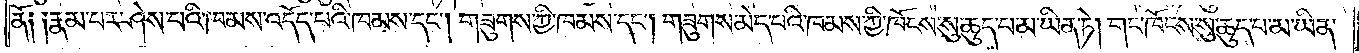ནོ༑ ༑རྣམ་པར་ཤེས་པའི་ཁམས་འདོད་པའི་ཁམས་དང༌། གཟུགས་ཀྱི་ཁམས་དང༌། གཟུགས་མེད་པའི་ཁམས་ཀྱི་ཁོངས་སུ་ཆུད་པ་མ་ཡིན་ཏེ། གང་ཁོངས་སུ་ཆུད་པ་མ་ཡིན་
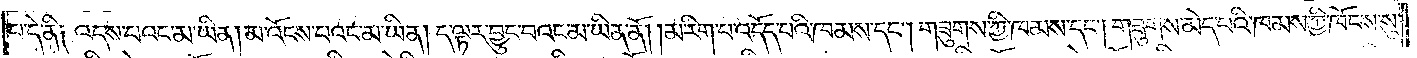པ་དེ་ནི༑ འདས་པའང་མ་ཡིན། མ་འོངས་པའང་མ་ཡིན། ད་ལྟར་བྱུང་བའང་མ་ཡིན་ནོ། །མ་རིག་པ་འདོད་པའི་ཁམས་དང༌། གཟུགས་ཀྱི་ཁམས་དང༌། གཟུགས་མེད་པའི་ཁམས་ཀྱི་ཁོངས་སུ་
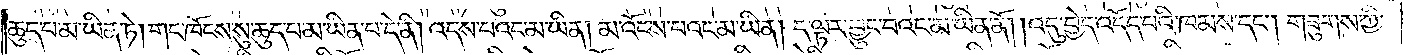ཆུད་པ་མ་ཡིན་ཏེ། གང་ཁོངས་སུ་ཆུད་པ་མ་ཡིན་པ་དེ་ནི། འདས་པའང་མ་ཡིན། མ་འོངས་པའང་མ་ཡིན། ད་ལྟར་བྱུང་བའང་མ་ཡིན་ནོ། །འདུ་བྱེད་འདོད་པའི་ཁམས་དང༌། གཟུགས་ཀྱི་
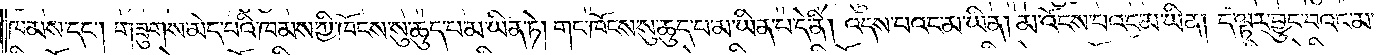ཁམས་དང༌། གཟུགས་མེད་པའི་ཁམས་ཀྱི་ཁོངས་སུ་ཆུད་པ་མ་ཡིན་ཏེ། གང་ཁོངས་སུ་ཆུད་པ་མ་ཡིན་པ་དེ་ནི། འདས་པའང་མ་ཡིན། མ་འོངས་པའང་མ་ཡིན། །ད་ལྟར་བྱུང་བའང་མ་
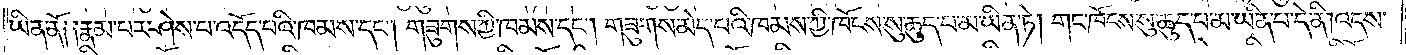ཡིན་ནོ༑ ༑རྣམ་པར་ཤེས་པ་འདོད་པའི་ཁམས་དང༌། གཟུགས་ཀྱི་ཁམས་དང༌། གཟུགས་མེད་པའི་ཁམས་ཀྱི་ཁོངས་སུ་ཆུད་པ་མ་ཡིན་ཏེ། གང་ཁོངས་སུ་ཆུད་པ་མ་ཡིན་པ་དེ་ནི། འདས་
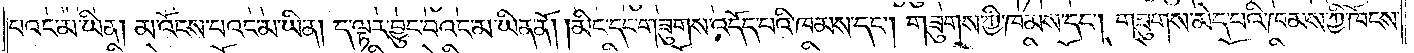པའང་མ་ཡིན། མ་འོངས་པའང་མ་ཡིན། ད་ལྟར་བྱུང་བའང་མ་ཡིན་ནོ། །མིང་དང་གཟུགས་འདོད་པའི་ཁམས་དང༌། གཟུགས་ཀྱི་ཁམས་དང༌། གཟུགས་མེད་པའི་ཁམས་ཀྱི་ཁོངས་
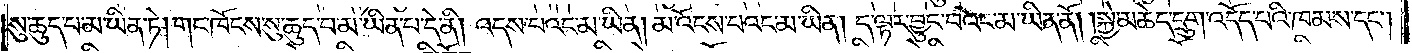སུ་ཆུད་པ་མ་ཡིན་ཏེ། གང་ཁོངས་སུ་ཆུད་པ་མ་ཡིན་པ་དེ་ནི། འདས་པའང་མ་ཡིན། མ་འོངས་པའང་མ་ཡིན། ད་ལྟར་བྱུང་བའང་མ་ཡིན་ནོ། །སྐྱེ་མཆེད་དྲུག་འདོད་པའི་ཁམས་དང༌།
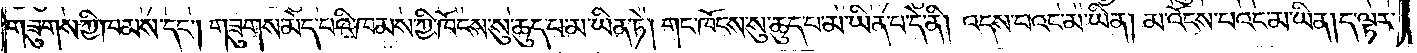གཟུགས་ཀྱི་ཁམས་དང༌། གཟུགས་མེད་པའི་ཁམས་ཀྱི་ཁོངས་སུ་ཆུད་པ་མ་ཡིན་ཏེ། གང་ཁོངས་སུ་ཆུད་པ་མ་ཡིན་པ་དེ་ནི། འདས་པའང་མ་ཡིན། མ་འོངས་པའང་མ་ཡིན། ད་ལྟར་
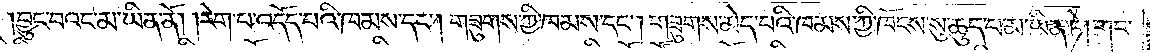བྱུང་བའང་མ་ཡིན་ནོ། །རེག་པ་འདོད་པའི་ཁམས་དང༌། གཟུགས་ཀྱི་ཁམས་དང༌། གཟུགས་མེད་པའི་ཁམས་ཀྱི་ཁོངས་སུ་ཆུད་པ་མ་ཡིན་ཏེ། གང་
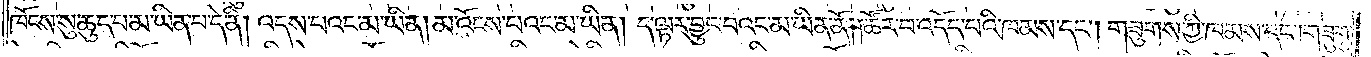ཁོངས་སུ་ཆུད་པ་མ་ཡིན་པ་དེ་ནི། འདས་པའང་མ་ཡིན། མ་འོངས་པའང་མ་ཡིན། ད་ལྟར་བྱུང་བའང་མ་ཡིན་ནོ། །ཚོར་བ་འདོད་པའི་ཁམས་དང༌། གཟུགས་ཀྱི་ཁམས་དང༌། གཟུགས་
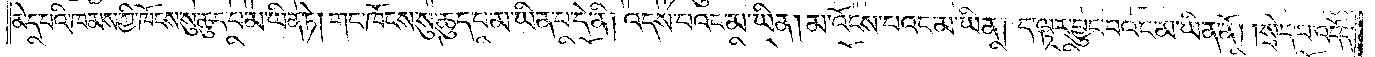མེད་པའི་ཁམས་ཀྱི་ཁོངས་སུ་ཆུད་པ་མ་ཡིན་ཏེ། གང་ཁོངས་སུ་ཆུད་པ་མ་ཡིན་པ་དེ་ནི། འདས་པའང་མ་ཡིན། མ་འོངས་པའང་མ་ཡིན། ད་ལྟར་བྱུང་བའང་མ་ཡིན་ནོ། །སྲེད་པ་འདོད་
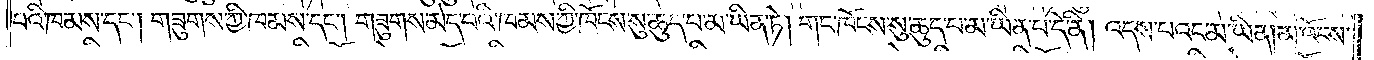པའི་ཁམས་དང༌། གཟུགས་ཀྱི་ཁམས་དང༌། གཟུགས་མེད་པའི་ཁམས་ཀྱི་ཁོངས་སུ་ཆུད་པ་མ་ཡིན་ཏེ། གང་ཁོངས་སུ་ཆུད་པ་མ་ཡིན་པ་དེ་ནི། འདས་པའང་མ་ཡིན། མ་འོངས་
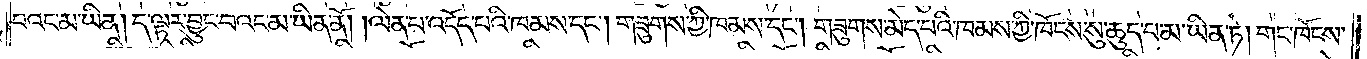པའང་མ་ཡིན། ད་ལྟར་བྱུང་བའང་མ་ཡིན་ནོ། །ལེན་པ་འདོད་པའི་ཁམས་དང༌། གཟུགས་ཀྱི་ཁམས་དང༌། གཟུགས་མེད་པའི་ཁམས་ཀྱི་ཁོངས་སུ་ཆུད་པ་མ་ཡིན་ཏེ། གང་ཁོངས་
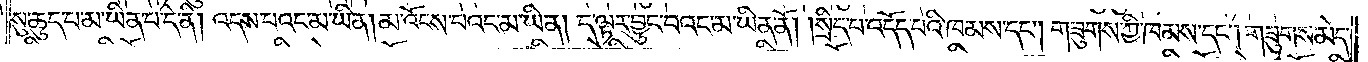སུ་ཆུད་པ་མ་ཡིན་པ་དེ་ནི། འདས་པའང་མ་ཡིན། མ་འོངས་པའང་མ་ཡིན། ད་ལྟར་བྱུང་བའང་མ་ཡིན་ནོ། །སྲིད་པ་འདོད་པའི་ཁམས་དང༌། གཟུགས་ཀྱི་ཁམས་དང༌། གཟུགས་མེད་
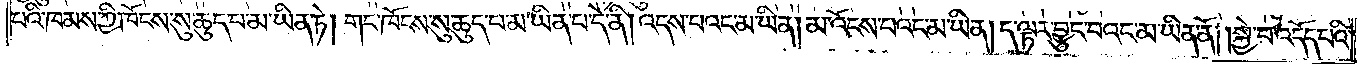པའི་ཁམས་ཀྱི་ཁོངས་སུ་ཆུད་པ་མ་ཡིན་ཏེ། གང་ཁོངས་སུ་ཆུད་པ་མ་ཡིན་པ་དེ་ནི། འདས་པའང་མ་ཡིན། མ་འོངས་པའང་མ་ཡིན། ད་ལྟར་བྱུང་བའང་མ་ཡིན་ནོ། །སྐྱེ་བ་འདོད་པའི་
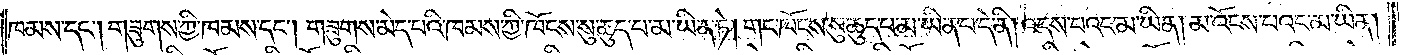ཁམས་དང༌། གཟུགས་ཀྱི་ཁམས་དང༌། གཟུགས་མེད་པའི་ཁམས་ཀྱི་ཁོངས་སུ་ཆུད་པ་མ་ཡིན་ཏེ། གང་ཁོངས་སུ་ཆུད་པ་མ་ཡིན་པ་དེ་ནི། འདས་པའང་མ་ཡིན། མ་འོངས་པའང་མ་ཡིན།
